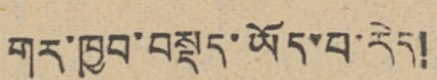གར་ཁྱབ་བསྡད་ཡོད་པ་རེད།
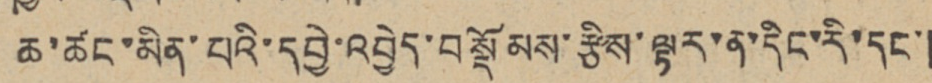ཆ་ཚང་མིན་པའི་དབྱེ་འབྱེད་བསྡོམས་རྩིས་ལྟར་ན་དིང་རི་དང་།
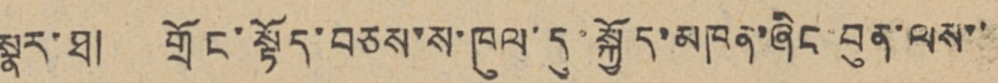སྣར་ཐ། གྲོང་སྟོད་བཅས་ས་ཁུལ་དུ་སྐྱོད་མཁན་ཞིང་བུན་ལས་་
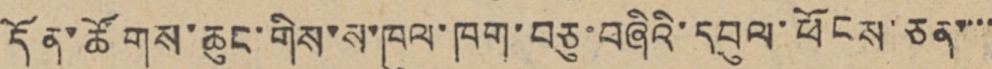དོན་ཚོགས་ཆུང་གིས་ས་ཁུལ་ཁག་བཅུ་བཞིའི་དབུལ་ཕོངས་ཅན་་་་
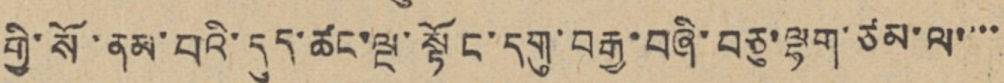གྱི་སོ་ནམ་པའི་དུད་ཚང་ལྔ་སྟོང་དགུ་བརྒྱ་བཞི་བཅུ་ལྷག་ཙམ་ལ་་་་
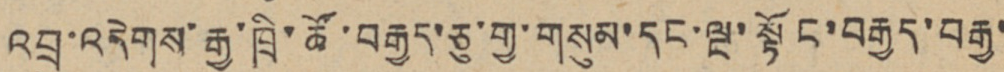འབྲུ་འདེགས་རྒྱ་ཁྲི་ཚོ་བརྒྱད་ཅུ་གྱ་གསུམ་དང་ལྔ་སྟོང་བརྒྱད་བརྒྱ་
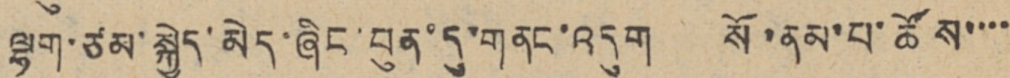ལྷག་ཙམ་སྐྱེད་མེད་ཞིང་བུན་དུ་གནང་འདུག སོ་ནམ་པ་ཚོས་་་་
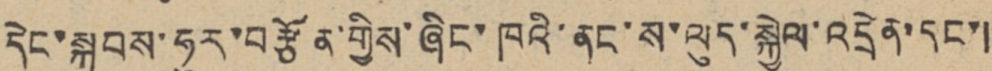དེང་སྐབས་ཧུར་བརྩོན་གྱིས་ཞིང་ཁའི་ནང་ས་ལུད་སྐྱེལ་འདྲེན་དང་།
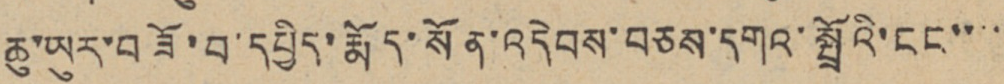ཆུ་ཡུར་བཟོ་བ་དཔྱིད་རྨོད་སོན་འདེབས་བཅས་དགའ་སྤྲོའི་ངང་་་་
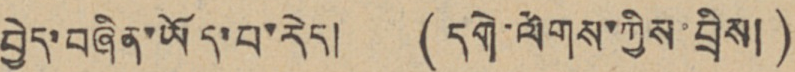བྱེད་བཞིན་ཡོད་པ་རེད། (དགེ་ལེགས་ཀྱིས་བྲིས།)
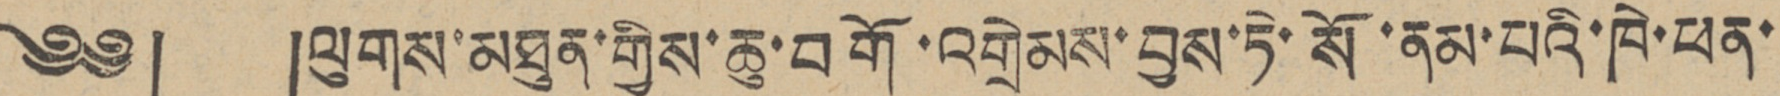༄༅། །ལུགས་མཐུན་གྱིས་ཆུ་བགོ་འགྲེམས་བྱས་ཏེ་སོ་ནམ་པའི་ཁེ་ཕན་
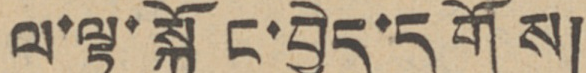ལ་ལྟ་སྐྱོང་བྱེད་དགོས།
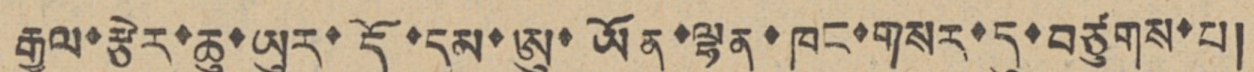རྒྱལ་རྩེར་ཆུ་ཡུར་དོ་དམ་ཨུ་ཡོན་ལྷན་ཁང་གསར་དུ་བཙུགས་པ།
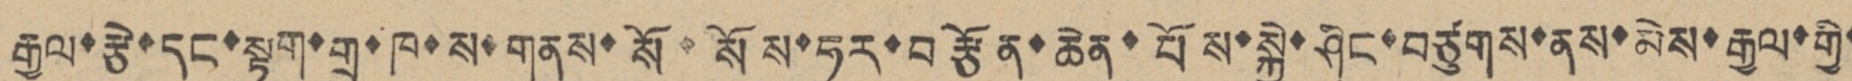རྒྱལ་རྩེ་དང་སྟག་གྲུ་ཁ་ས་གནས་སོ་སོས་ཧུར་བརྩོན་ཆེན་པོས་སྐྱེ་ཤིང་བཙུགས་ནས་མེས་རྒྱལ་གྱི་
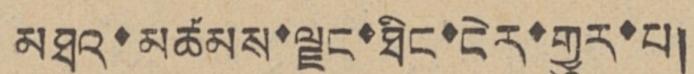མཐའ་མཚམས་ལྗང་ཐིང་ངེར་གྱུར་པ།
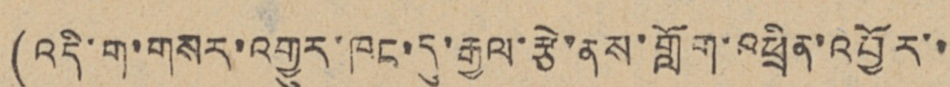(འདི་ག་གསར་འགྱུར་ཁང་དུ་རྒྱལ་རྩེ་ནས་གློག་འཕྲིན་འབྱོར་་
